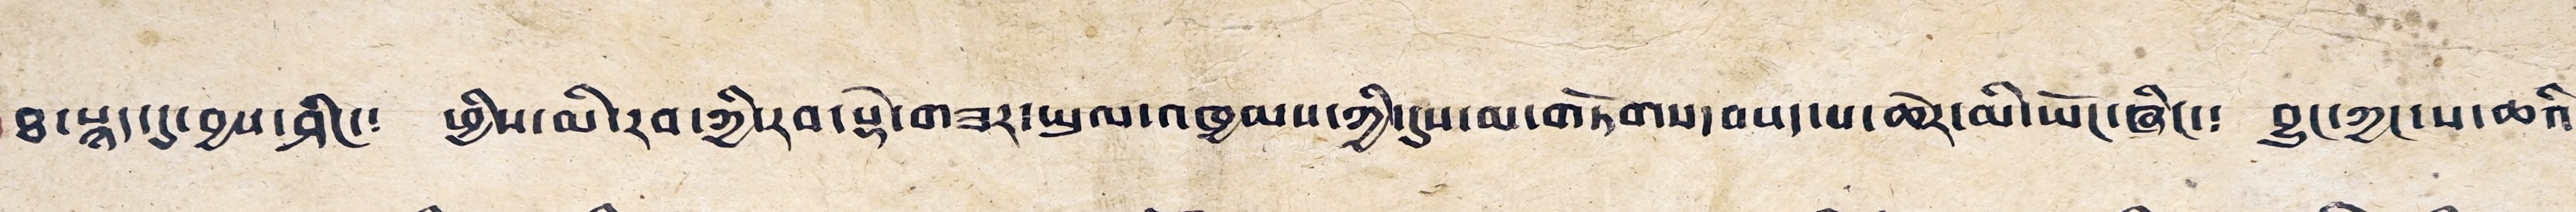ཐ་སྙད་དུ་བྱས་ཤིང་༴ ཕྱིས་མི་རབ་ཀྱི་རབ་སྡེ་གཟར་ཡལ་འཁྱམས་ཀྱི་དུས་མ་གཏོགས་བསད་པ་ཆེར་མི་ཡོང་ཞིང་༴ བྱུང་ཀྱང་ས་ཆའི་
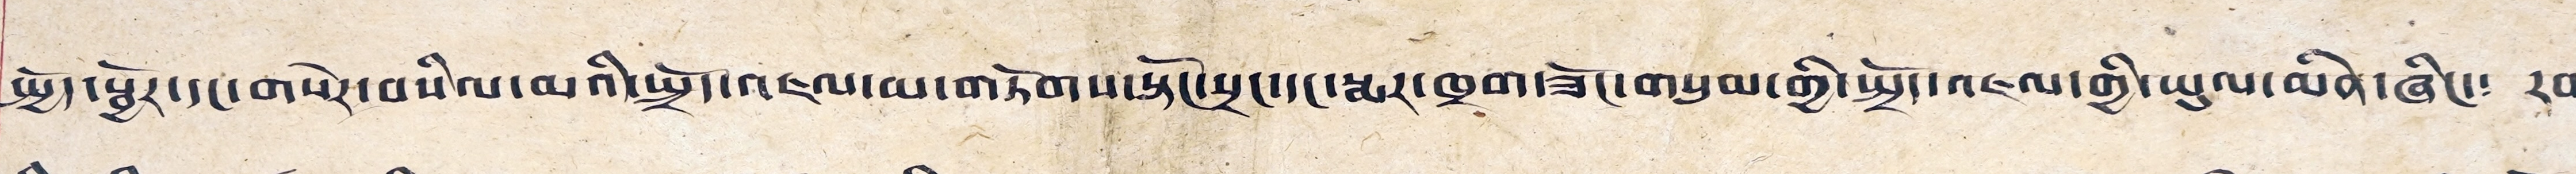སྤྱོད་སྦྱོར་དང་གསེར་བསིལ་མའི་སྤྲོད་འཇལ་མ་གཏོགས་སྟོང་སྲང་དང་སྨར་ཁྲག་ཟོང་གསུམ་གྱི་སྤྲོད་འཇལ་གྱི་ཡུལ་མིན་ཞིང་༴ རབ་
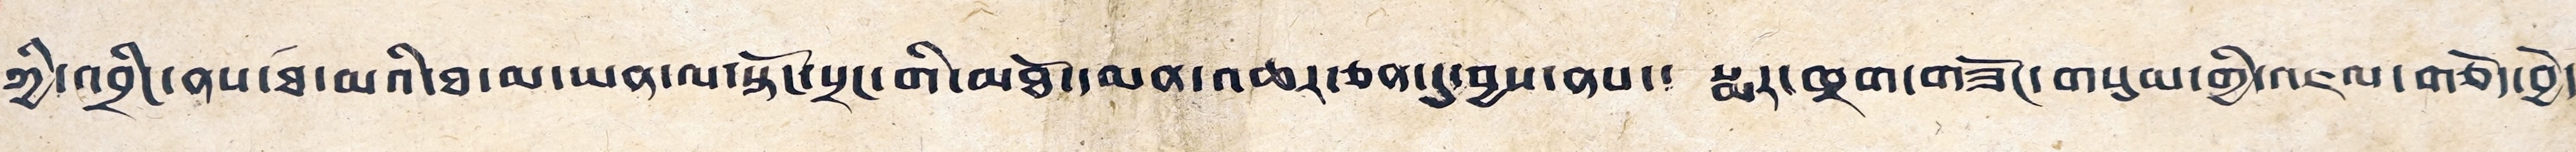ཀྱི་འབྲིང་ནས་ཐ་མའི་ཐ་མ་ཡན་ལ་སྟོང་སྲང་གི་མཐོ་དམན་འཆར་ཅན་དུ་བྱས་ནས་༴ སྨར་ཁྲག་གཟོང་གསུམ་གྱི་འཇལ་གཅོད་བྱེད་
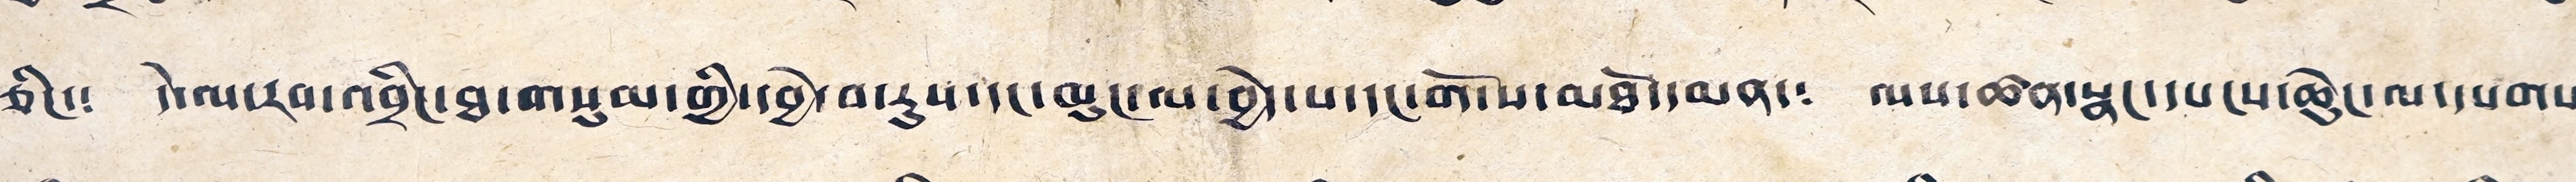ཅིང་༴ དེ་ལ་རབ་འབྲིང་ཐ་གསུམ་གྱི་དབྱེ་བ་རུས་དང་ཁུང་ལ་བྱེད་པ་དང་གོ་ས་མཐོ་དམན་༴ ལས་ཚན་སྣང་དཔངས་ཆེུང་ལ་དཔགས་
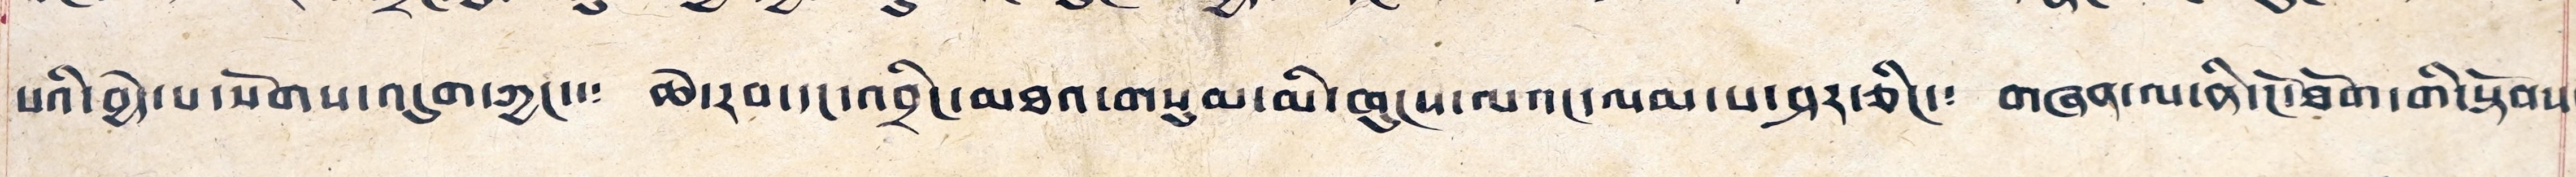པའི་བྱེད་པ་སོགས་འདུག་ཀྱང་༴ ཆེ་རབ་དང་འབྲིང་མཐའ་གསུམ་མི་ཁུངས་ལའང་ལམ་པ་ཤར་ཅིང་༴ གཞན་ལ་ནི་ངོ་ཐོག་གི་སྟོབས་
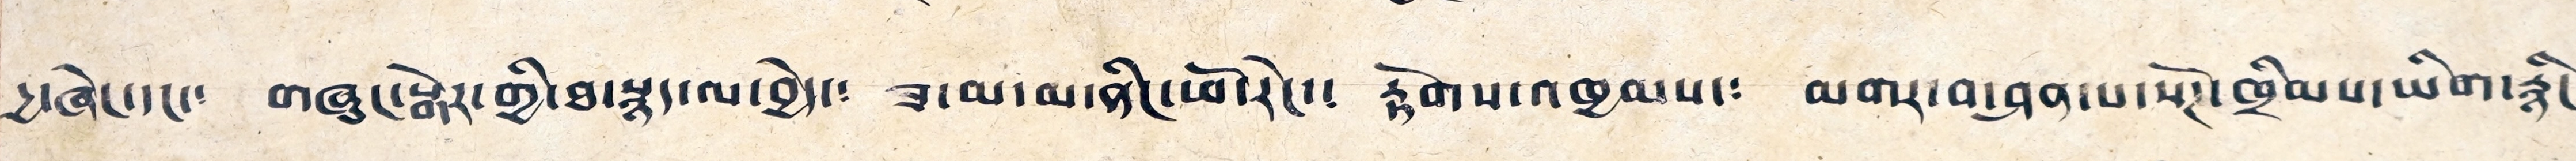དྱ་ཞེང་དང་༴ གཞང་སྒེར་གྱི་ཐ་སྙད་ལ་བྱེད་༴ ཟ་མ་མ་ནིང་ཕོ་རེང་༴ རྟོགས་འཁྱམས་༴ མགར་བ་ཤན་པ་སོཊ་ཁྲིམས་ཡིག་རྙིང་
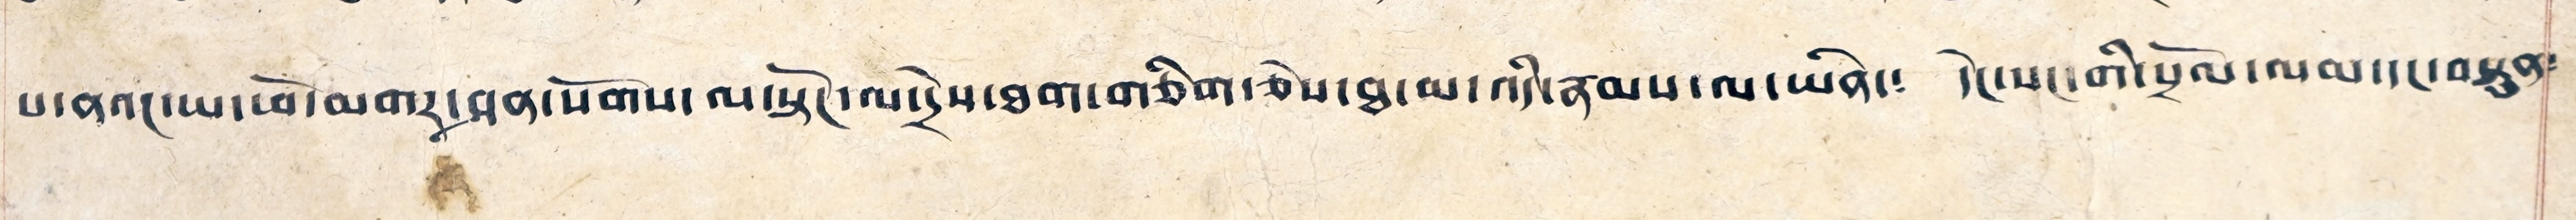པ་ནའང་ཡ་ཕོ་མགར་ཤན་སོགས་ལ་སྟོང་ལ་དྲེས་ཐག་གཅིག་ཅེས་ཐ་མ་འདི་ཉམས་ལ་ཡིན་༴ དེང་སང་གི་སྲོལ་ལམ་དང་བསྟུན༴
